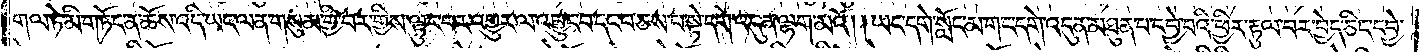གལ་ཏེ་མི་གཏོང་ན་ཆོས་འདི་ཡང་ལན་གསུམ་གྱི་བར་གྱིས་ལྟུང་བར་འགྱུར་ལ་འབྱུང་བ་དང་བཅས་པ་སྟེ་དགེ་འདུན་ལྷག་མའོ། །ཡང་དགེ་སློང་མ་གང་དགེ་འདུན་མཐུན་པ་དབྱེ་བའི་ཕྱིར་རྟུལ་བར་བྱེད་ཅིང་དབྱེ་
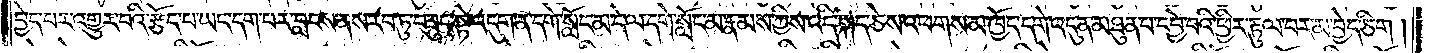བྱེད་པར་འགྱུར་བྱེད་བའི་རྩོད་པ་ཡང་དག་པར་བླངས་ནས་རབ་ཏུ་བཟུང་སྟེ་འདུག་ན་དགེ་སློང་མ་དེ་ལ་དགེ་སློང་མ་རྣམས་ཀྱིས་འདི་སྐད་ཅེས་འཕགས་མ་ཁྱོད་དགེ་འདུན་མཐུན་པ་དབྱེ་བའི་ཕྱིར་རྟུལ་བར་མ་བྱེད་ཅིག །
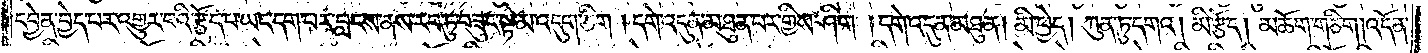དབྱེན་བྱེད་པར་འགྱུར་བའི་རྩོད་པ་ཡང་དག་པར་བླངས་ནས་རབ་ཏུ་བཟུང་སྟེ་མ་འདུག་ཅིག །དགེ་འདུན་མཐུན་པར་གྱིས་ཤིག །དགེ་འདུན་མཐུན། མི་ཕྱེད། ཀུན་ཏུ་དགའ། མི་རྩོད། མཆོག་གཅིག།འདོན་
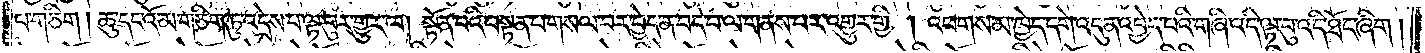པ་གཅིག། ཆུ་དང་འོ་མ་གཅིག་ཏུ་འདྲེས་པ་ལྟ་བུར་གྱུར་ལ། སྟོན་པའི་བསྟན་པ་གསལ་བར་བྱེད་ན་བདེ་བ་ལ་གནས་པར་འགྱུར་གྱི ། འཕགས་མ་ཁྱེད་དགེ་འདུན་འབྱེད་པའི་གཞི་འདི་ལྟ་བུ་འདི་ཐོང་ཞིག །
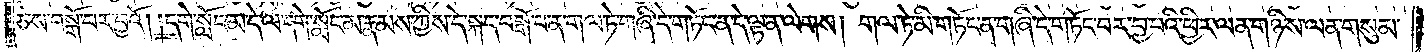ཅེས་བསྒོ་བར་བྱའོ། །དགེ་སློང་མ་དེ་ལ་དགེ་སློང་མ་རྣམས་ཀྱིས་དེ་སྐད་བསྒོ་བ་ན་གལ་ཏེ་གཞི་དེ་གཏོང་ན་དེ་ལྟ་ན་ལེགས། གལ་ཏེ་མི་གཏོང་ན་གཞི་དེ་གཏོང་བར་བྱ་བའི་ཕྱིར་ལན་གཉིས་ལན་གསུམ་
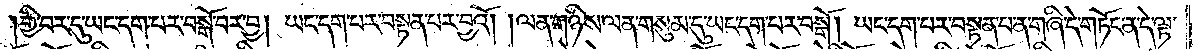གྱི་བར་དུ་ཡང་དག་པར་བསྒོ་བར་བྱ། ཡང་དག་པར་བསྟན་པར་བྱའོ། །ལན་གཉིས་ལན་གསུམ་དུ་ཡང་དག་པར་བསྒོ། ཡང་དག་པར་བསྟན་པ་ན་གཞི་དེ་གཏོང་ན་དེ་ལྟ་
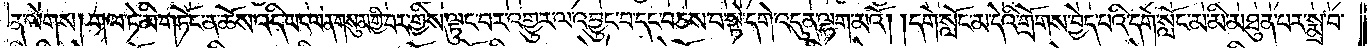ན་ལེགས། གལ་ཏེ་མི་གཏོང་ན་ཆོས་འདི་ཡང་ལན་གསུམ་གྱི་བར་གྱིས་ལྟུང་བར་འགྱུར་ལ་འབྱུང་བ་དང་བཅས་པ་སྟེ་དགེ་འདུན་ལྷག་མའོ། །དགེ་སློང་མ་དེའི་གྲོགས་བྱེད་པའི་དགེ་སློང་མ་མི་མཐུན་པར་སྨྲ་བ་
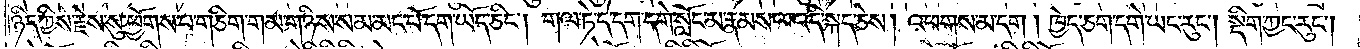ཉིད་ཀྱིས་རྗེས་སུ་ཕྱོགས་པ་གཅིག་གམ་གཉིས་སམ་མང་པོ་དག་ཡོད་ཅིང༌། གལ་ཏེ་དེ་དག་དགེ་སློང་མ་རྣམས་ལ་འདི་སྐད་ཅེས། འཕགས་མ་དག །ཁྱེད་ཅག་དགེ་ཡང་རུང༌། སྡིག་ཀྱང་རུང༌།
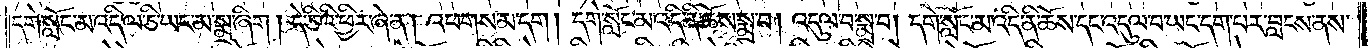དགེ་སློང་མ་འདི་ལ་ཅི་ཡང་མ་སྨྲ་ཞིག །དེ་ཅིའི་ཕྱིར་ཞེ་ན། འཕགས་མ་དག །དགེ་སློང་མ་འདི་ནི་ཆོས་སྨྲ་བ། འདུལ་བ་སྨྲ་བ། དགེ་སློང་མ་འདི་ནི་ཆོས་དང་འདུལ་བ་ཡང་དག་པར་བླངས་ནས་
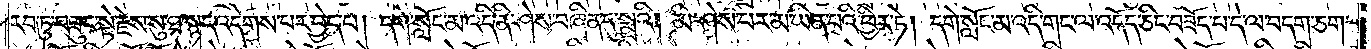རབ་ཏུ་བཟུང་སྟེ་རྗེས་སུ་ཐ་སྙད་འདོགས་པར་བྱེད་པ། དགེ་སློང་མ་འདི་ནི་ཤེས་བཞིན་དུ་སྨྲའི། མི་ཤེས་པར་མ་ཡིན་པའི་ཕྱིར་ཏེ། དགེ་སློང་མ་འདི་གང་ལ་འདོད་ཅིང་བཟོད་པ་དེ་ལ་བདག་ཅག་
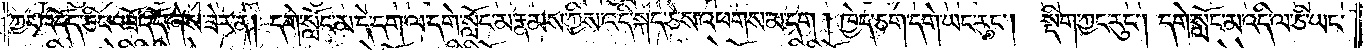ཀྱང་འདོད་ཅིང་བཟོད་དོ་ཞེས་ཟེར་ན། དགེ་སློང་མ་དེ་དག་ལ་དགེ་སློང་མ་རྣམས་ཀྱིས་འདི་སྐད་ཅེས་འཕགས་མ་དག །ཁྱེད་ཅག་དགེ་ཡང་རུང༌། སྡིག་ཀྱང་རུང༌། །དགེ་སློང་མ་འདི་ལ་ཅི་ཡང་
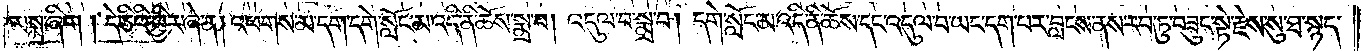མ་སྨྲ་ཞིག །དེ་ཅིའི་ཕྱིར་ཞེ་ན། འཕགས་མ་དག་དགེ་སློང་མ་འདི་ནི་ཆོས་སྨྲ་བ། འདུལ་བ་སྨྲ་བ། དགེ་སློང་མ་འདི་ནི་ཆོས་དང་འདུལ་བ་ཡང་དག་པར་བླངས་ནས་རབ་ཏུ་བཟུང་སྟེ་རྗེས་སུ་ཐ་སྙད་
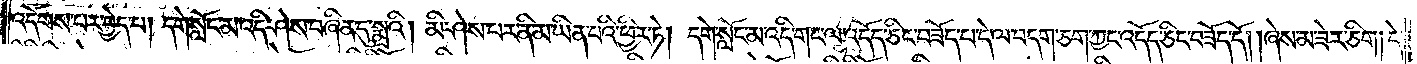འདོགས་པར་བྱེད་པ། དགེ་སློང་མ་འདི་ཤེས་བཞིན་དུ་སྨྲའི། མི་ཤེས་པར་ནི་མ་ཡིན་པའི་ཕྱིར་ཏེ། དགེ་སློང་མ་འདི་གང་ལ་འདོད་ཅིང་བཟོད་པ་དེ་ལ་བདག་ཅག་ཀྱང་འདོད་ཅིང་བཟོད་དོ། །ཞེས་མ་ཟེར་ཅིག །དེ་
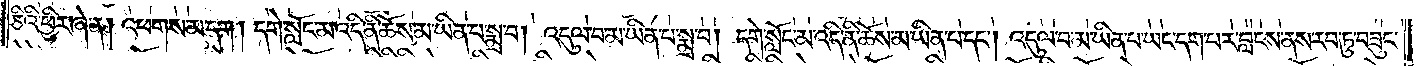ཅིའི་ཕྱིར་ཞེ་ན། འཕགས་མ་དག །དགེ་སློང་མ་འདི་ནི་ཆོས་མ་ཡིན་པ་སྨྲ་བ། འདུལ་བ་མ་ཡིན་པ་སྨྲ་བ། དགེ་སློང་མ་འདི་ནི་ཆོས་མ་ཡིན་པ་དང༌། འདུལ་བ་མ་ཡིན་པ་ཡང་དག་པར་བླངས་ནས་རབ་ཏུ་བཟུང་
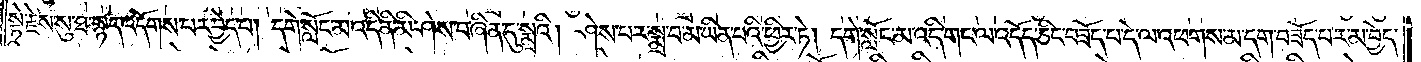སྟེ་རྗེས་སུ་ཐ་སྙད་འདོགས་པར་བྱེད་པ། དགེ་སློང་མ་འདི་ནི་མི་ཤེས་བཞིན་དུ་སྨྲའི། །ཤེས་པར་སྨྲ་བ་མ་ཡིན་པའི་ཕྱིར་ཏེ། དགེ་སློང་མ་འདི་གང་ལ་འདོད་ཅིང་བཟོད་པ་དེ་ལ་འཕགས་མ་དག་བཟོད་པར་མ་བྱེད་
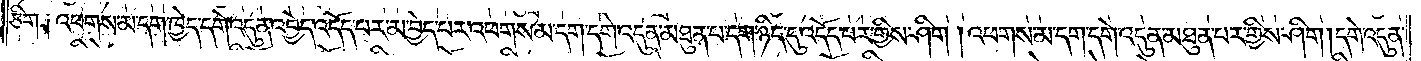ཅིག༑ འཕགས་མ་དག་ཁྱེད་དགེ་འདུན་འབྱེད་འདོད་པར་མ་བྱེད་པར་འཕགས་མ་དག་དགེ་འདུན་མཐུན་པ་དག་ཉིད་དུ་འདོད་པར་གྱིས་ཤིག །འཕགས་མ་དག་དགེ་འདུན་མཐུན་པར་གྱིས་ཤིག །དགེ་འདུན་
